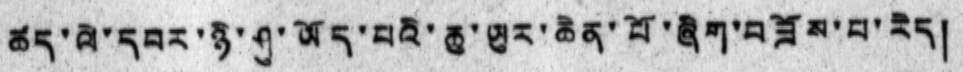ཚད་ལེ་དབར་ཉི་ཤུ་ཡོད་པའི་ཆུ་ཡུར་ཆེན་པོ་ཞིག་བཟོས་པ་རེད།
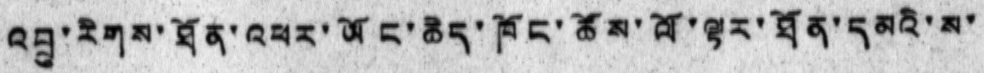འབྲུ་རིགས་ཐོན་འཕར་ཡོང་ཆེད་ཁོང་ཚོས་ལོ་ལྟར་ཐོན་དམའི་ས་
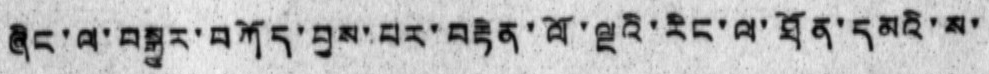ཞིང་ལ་བསྒྱུར་བཀོད་བྱས་པར་བརྟེན་ལོ་ལྔའི་རིང་ལ་ཐོན་དམའི་ས་
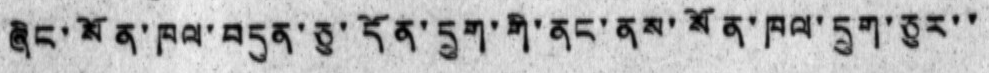ཞིང་སོན་ཁལ་བདུན་ཅུ་དོན་དྲུག་གི་ནང་ནས་སོན་ཁལ་དྲུག་ཅུར་་
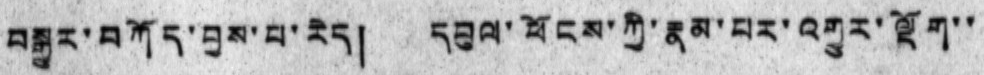བསྒྱུར་བཀོད་བྱས་པ་རེད། དབུལ་ཕོངས་ཀྱི་རྣམ་པར་འགྱུར་ལྡོག་་
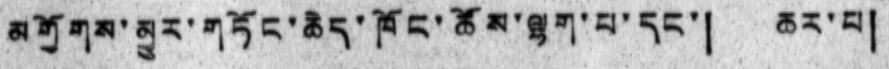མགྱོགས་མྱུར་གཏོང་ཆེད་ཁོང་ཚོས་ལྷག་པ་དང་། ཆར་པ།
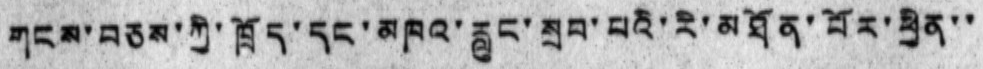གངས་བཅས་ཀྱི་ཁྲོད་དང་མཁའ་རླུང་སྲབ་པའི་རི་མཐོན་པོར་ཕྱིན་་
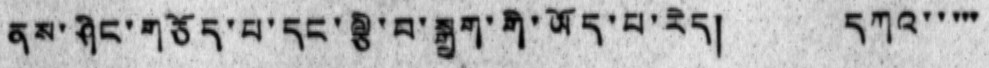ནས་ཤིང་གཅོད་པ་དང་ལྕི་བ་སྒྲུག་གི་ཡོད་པ་རེད། དཀའ་་་་་
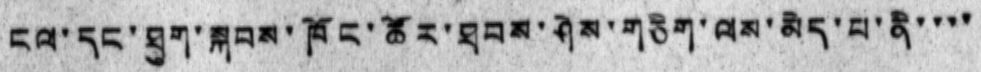ངལ་དང་ཐུག་སྐབས་ཁོང་ཚོར་ཐབས་ཤེས་གཅིག་ལས་མེད་པ་ནི་་་་
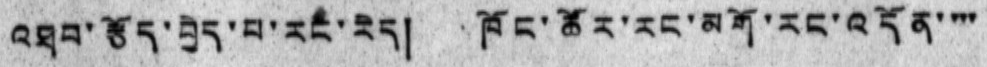འཐབ་རྩོད་བྱེད་པ་རང་རེད། ཁོང་ཚོར་རང་མགོ་རང་འདོན་་་་
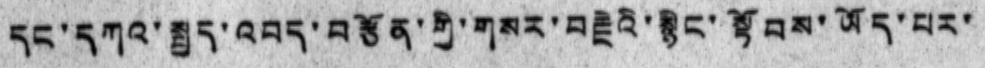དང་དཀའ་སྤྱད་འབད་བརྩོན་གྱི་གསར་བརྗེའི་སྙིང་སྟོབས་ཡོད་པར་
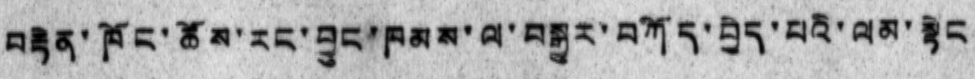བརྟེན་ཁོང་ཚོས་རང་བྱུང་ཁམས་ལ་བསྒྱུར་བཀོད་བྱེད་པའི་ལམ་སྟེང
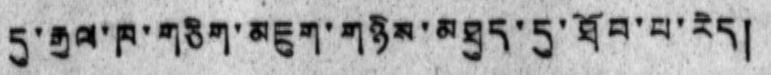དུ་རྒྱལ་ཁ་གཅིག་མཇུག་གཉིས་མཐུད་དུ་ཐོབ་པ་རེད།
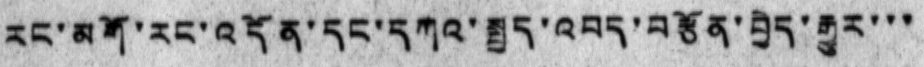རང་མགོ་རང་འདོན་དང་དཀའ་སྤྱད་འབད་བརྩོན་བྱེད་རྒྱུར་་་
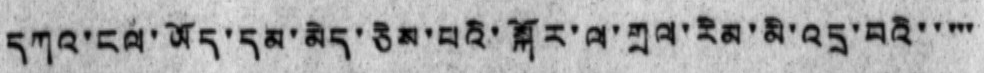དཀའ་ངལ་ཡོད་དམ་མེད་ཅེས་པའི་སྐོར་ལ་གྲལ་རིམ་མི་འདྲ་བའི་་་་་
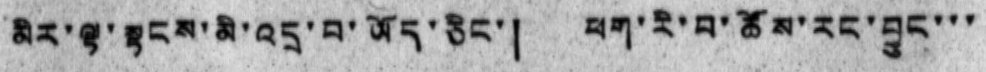མིར་ལྟ་སྟངས་མི་འདྲ་བ་ཡོད་ཅིང་། ཕག་རི་བ་ཚོས་རང་བྱུང་་་
